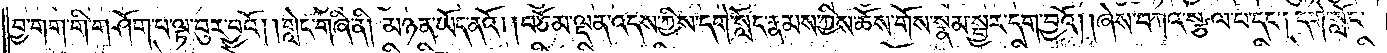བྱ་གག་གི་གཤོག་པ་ལྟ་བུར་བྱའོ། །གླེང་གཞི་ནི། མཉན་ཡོད་ནའོ། །བཅོམ་ལྡན་འདས་ཀྱིས་དགེ་སློང་རྣམས་ཀྱིས་ཆོས་གོས་སྣམ་སྦྱར་དག་བྱའོ། །ཞེས་བཀའ་སྩལ་པ་དང༌། དགེ་སློང་
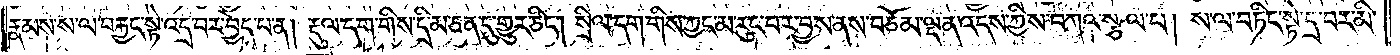རྣམས་ས་ལ་བརྐྱང་སྟེ་འདྲ་བར་བྱེད་པ་ན། རྡུལ་དག་གིས་དྲི་མ་ཅན་དུ་གྱུར་ཅིང༌། སྲིལ་དག་གིས་ཀྱང་མ་རུང་བར་བྱས་ནས་བཅོམ་ལྡན་འདས་ཀྱིས་བཀའ་སྩལ་པ། ས་ལ་བཏིང་སྟེ་དྲ་བར་མི་
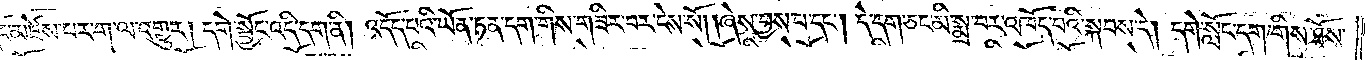གདོང་མཛེས་པར་ག་ལ་འགྱུར། དགེ་སྦྱོང་འདི་དག་ནི། འདོད་པའི་ཡོན་ཏན་དག་གིས་གཟིར་བར་ངེས་སོ། །ཞེས་བྱས་པ་དང༌། དེ་དག་ཅང་མི་སྨྲ་བར་འཁོད་པའི་སྐབས་དེ། དགེ་སློང་དག་གིས་ཐོས་
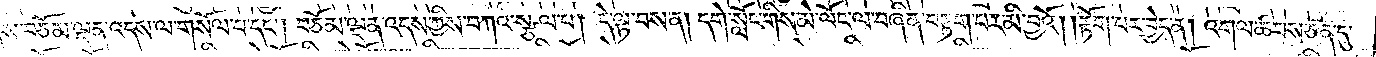ནས་བཅོམ་ལྡན་འདས་ལ་གསོལ་པ་དང༌། བཅོམ་ལྡན་འདས་ཀྱིས་བཀའ་སྩལ་པ། དེ་ལྟ་བས་ན། དགེ་སློང་གིས་མེ་ལོང་ལ་བཞིན་བརྟག་པར་མི་བྱའོ། །རྟོག་པར་བྱེད་ན། འགལ་ཚབས་ཅན་དུ་
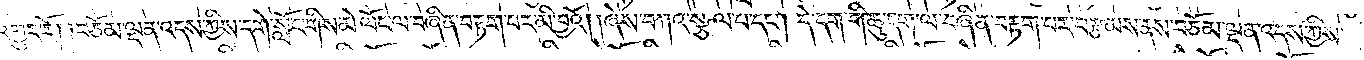འགྱུར་རོ། །བཅོམ་ལྡན་འདས་ཀྱིས་དགེ་སློང་གིས་མེ་ལོང་ལ་བཞིན་བརྟག་པར་མི་བྱའོ། །ཞེས་བཀའ་སྩལ་པ་དང༌། དེ་དག་གི་ཆུ་དག་ལ་བཞིན་བརྟག་པར་བརྩམས་ནས་བཅོམ་ལྡན་འདས་ཀྱིས་
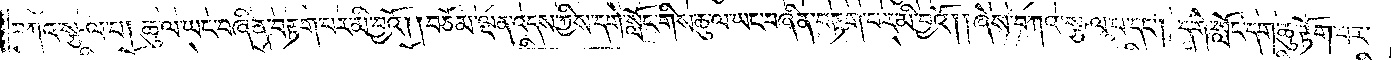བཀའ་སྩལ་པ། ཆུ་ལ་ཡང་བཞིན་བརྟག་པར་མི་བྱའོ། །བཅོམ་ལྡན་འདས་ཀྱིས་དགེ་སློང་གིས་ཆུ་ལ་ཡང་བཞིན་བརྟག་པར་མི་བྱའོ། །ཞེས་བཀའ་སྩལ་པ་དང༌། དགེ་སློང་དག་ཆུ་རྟོག་པར་
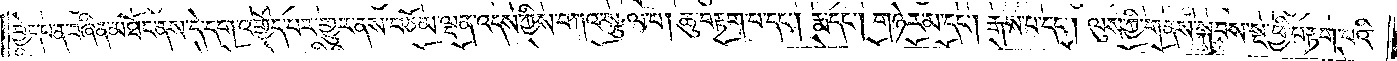བྱེད་པ་ན་བཞིན་མཐོང་ནས་དེ་དག་འགྱོད་པར་གྱུར་ནས་བཅོམ་ལྡན་འདས་ཀྱིས་བཀའ་སྩལ་པ། ཆུ་བརྟག་པ་དང༌། རྨ་དང༌། གཉེར་མ་དང༌། རྒས་པ་དང༌། ལུས་ཀྱི་གནས་སྐབས་སྔ་ཕྱི་བརྟག་པའི་
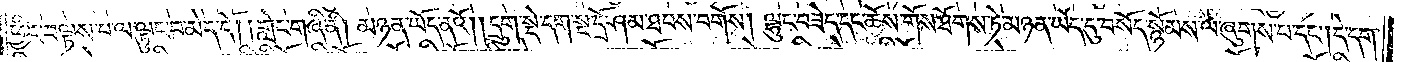ཕྱིར་བལྟས་པ་ལ་ལྟུང་བ་མེད་དོ། །གླེང་གཞི་ནི། མཉན་ཡོད་ནའོ། །དྲུག་སྡེ་དག་སྔ་དྲོ་ཤམ་ཐབས་བགོས། ལྷུང་བཟེད་དང་ཆོས་གོས་ཐོགས་ཏེ་མཉན་ཡོད་དུ་བསོད་སྙོམས་ལ་ཞུགས་པ་དང༌། དེ་དག་
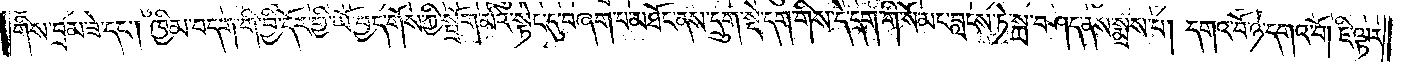གིས་བྲམ་ཟེ་དང༌། ཁྱིམ་བདག་གི་བྱི་དོར་གྱི་ཡོ་བྱད་གོས་ཀྱི་སྤྲོག་མའི་སྟེང་དུ་བཞག་པ་མཐོང་ནས་དྲུག་སྡེ་དག་གིས་དེ་དག་གི་སོ་མང་བླངས་ཏེ་སྐྲ་བཤད་ནས་སྨྲས་པ། དགའ་བོ་ཉེ་དགའ་བོ། ཇི་ལྟར་
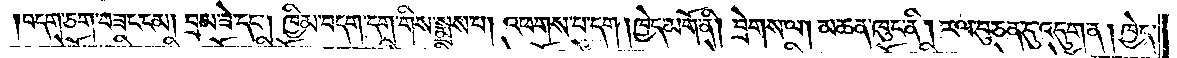བདག་ཅག་བཟང་ངམ། བྲམ་ཟེ་དང༌། ཁྱིམ་བདག་དག་གིས་སྨྲས་པ། འཕགས་པ་དག །ཁྱེད་མགོ་ནི། བྲེགས་ལ། མཆན་ཁུང་ནི། རལ་བུ་ཅན་དུ་འདུག་ན། ཁྱེད་
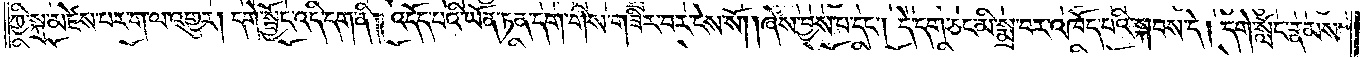ཀྱི་སྐྲ་མཛེས་པར་ག་ལ་འགྱུར། དགེ་སྦྱོང་འདི་དག་ནི། འདོད་པའི་ཡོན་ཏན་དག་གིས་གཟིར་བར་ངེས་སོ། །ཞེས་བྱ་བ་དང༌། དེ་དག་ཅང་མི་སྨྲ་བར་འཁོད་པའི་སྐབས་དེ། དགེ་སློང་རྣམས་
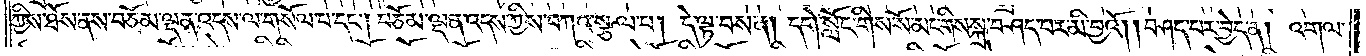ཀྱིས་ཐོས་ནས་བཅོམ་ལྡན་འདས་ལ་གསོལ་པ་དང༌། བཅོམ་ལྡན་འདས་ཀྱིས་བཀའ་སྩལ་པ། དེ་ལྟ་བས་ན། དགེ་སློང་གིས་སོ་མང་གིས་སྐྲ་བཤད་པར་མི་བྱའོ། །བཤད་པར་བྱེད་ན། འགལ་
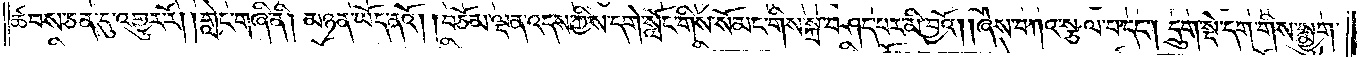ཚབས་ཅན་དུ་འགྱུར་རོ། །གླེང་གཞི་ནི། མཉན་ཡོད་ནའོ། །བཅོམ་ལྡན་འདས་ཀྱིས་དགེ་སློང་གིས་སོ་མང་གིས་སྐྲ་བཤད་པར་མི་བྱའོ། །ཞེས་བཀའ་སྩལ་པ་དང༌། དྲུག་སྡེ་དག་གིས་སྨྱུག་
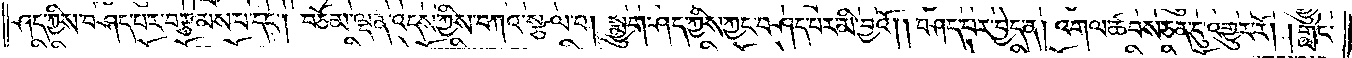ཤད་ཀྱིས་བཤད་པར་བརྩམས་པ་དང༌། བཅོམ་ལྡན་འདས་ཀྱིས་བཀའ་སྩལ་པ། སྨྱུག་ཤད་ཀྱིས་ཀྱང་བཤད་པར་མི་བྱའོ། །བཤད་པར་བྱེད་ན། འགལ་ཚབས་ཅན་དུ་འགྱུར་རོ། །གླེང་
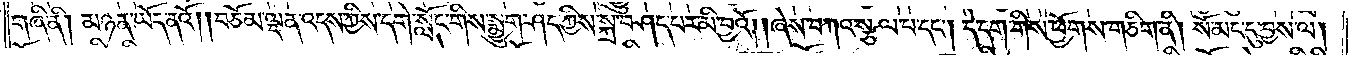གཞི་ནི། མཉན་ཡོད་ནའོ། །བཅོམ་ལྡན་འདས་ཀྱིས་དགེ་སློང་གིས་སྨྱུག་ཤད་ཀྱིས་སྐྲ་བཤད་པར་མི་བྱའོ། །ཞེས་བཀའ་སྩལ་པ་དང༌། དེ་དག་གིས་ཕྱོགས་གཅིག་ནི། སོ་མང་དུ་བྱས་ལ།
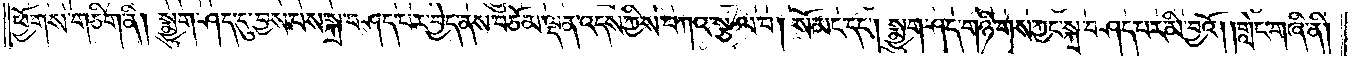ཕྱོགས་གཅིག་ནི། སྨྱུག་ཤད་དུ་བྱས་པས་སྐྲ་བཤད་པར་བྱེད་ནས་བཅོམ་ལྡན་འདས་ཀྱིས་བཀའ་སྩལ་པ། སོ་མང་དང༌། སྨྱུག་ཤད་གཉི་གས་ཀྱང་སྐྲ་བཤད་པར་མི་བྱའོ། །གླེང་གཞི་ནི།
